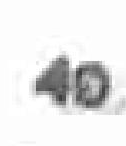40
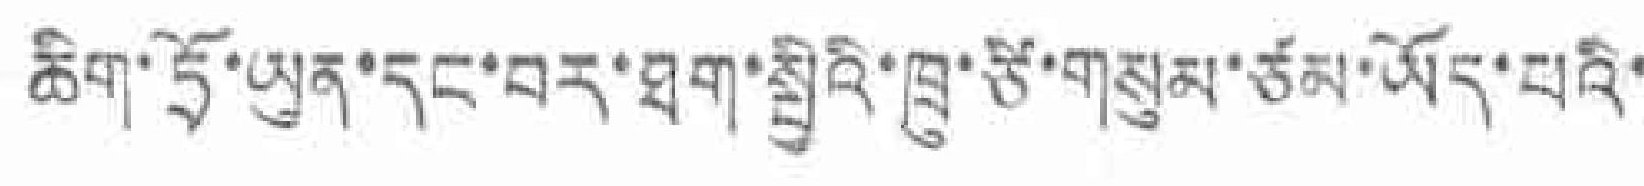ཆིག་ཧྲོ་ཡུན་དང་བར་ཐག་སྤྱིའི་ཁྲུ་ཙི་གསུམ་ཙམ་ཡོད་པའི་
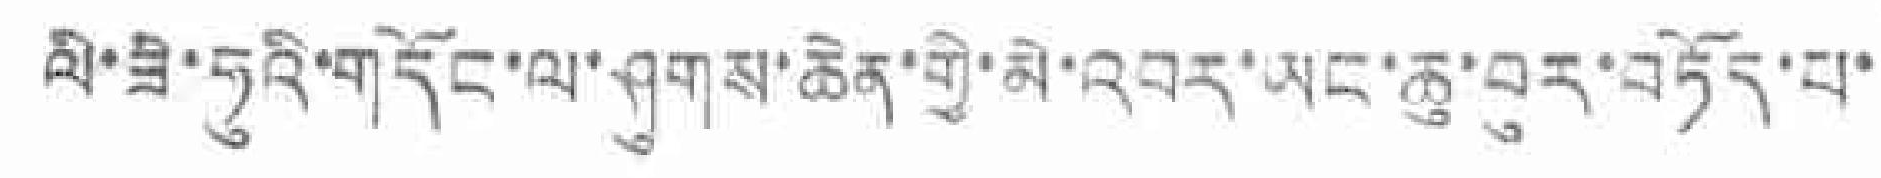ལི་ཟི་ཧུའི་གདོང་ལ་ཤུགས་ཆེན་གྱི་མེ་འབར་ཡང་ཆུ་བུར་བཏོད་པ་
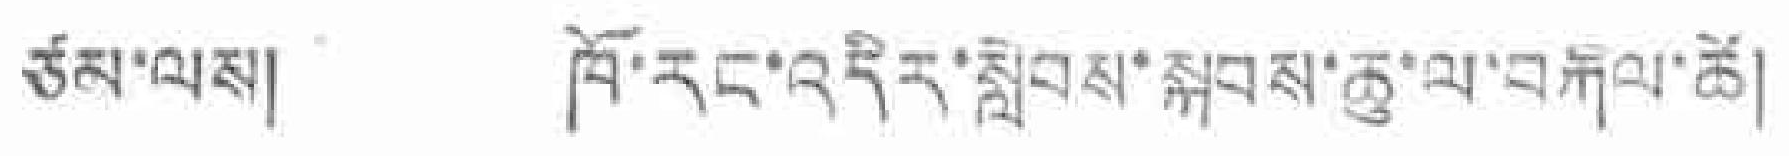ཙམ་ལས། ཁོ་རང་འདིར་སླེབས་སྐབས་ཆུ་ལ་བརྐལ་ཚེ།
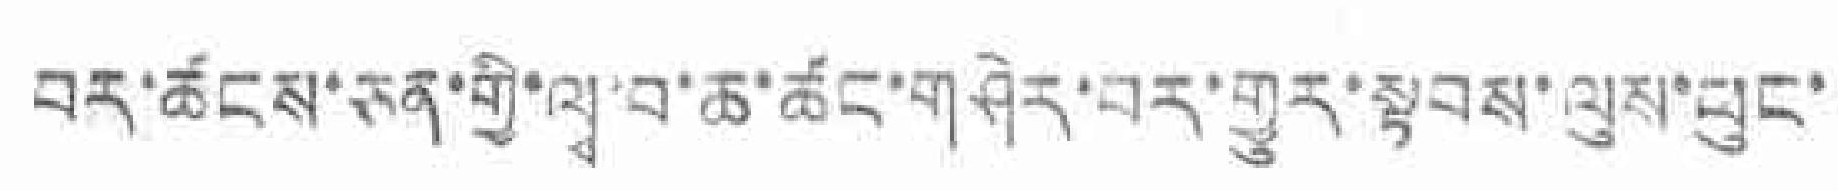བར་ཚངས་ཅན་གྱི་ལྭ་བ་ཆ་ཚང་གཤེར་བར་གྱུར་སྟབས་ལུམ་ཕུང་་
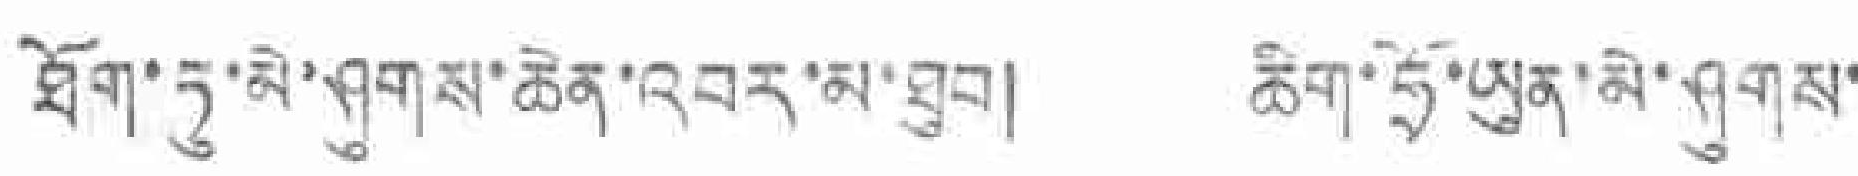ཐོག་ཏུ་མེ་ཤུགས་ཆེན་འབར་མ་ཐུབ། ཆིག་ཧྲོ་ཡུན་མེ་ཤུགས་
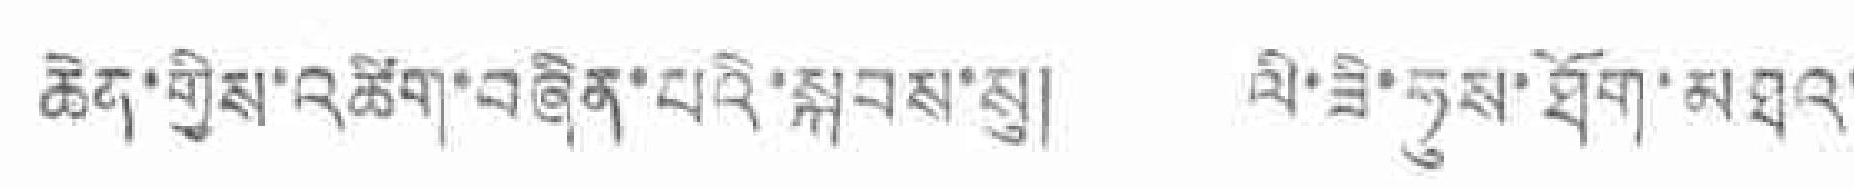ཆེན་གྱིས་འཚིག་བཞིན་པའི་སྐབས་སུ། ལི་ཟི་ཧུས་ཐོག་མཐའ་
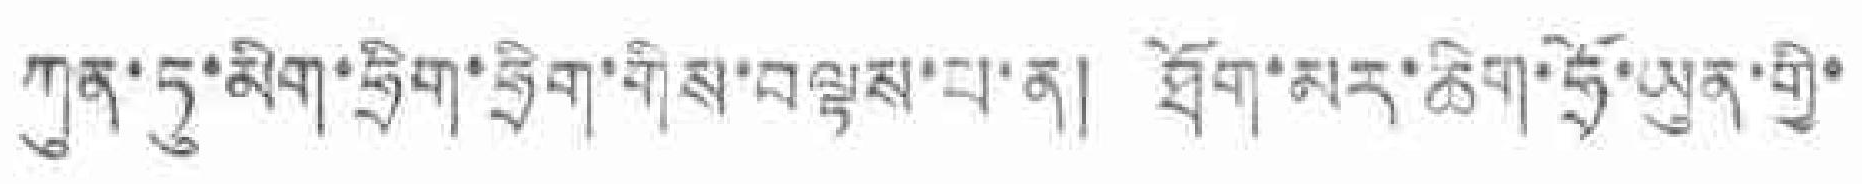ཀུན་ཏུ་མིག་ཧྲིག་ཧྲིག་གིས་བལྟས་པ་ན། ཐོག་མར་ཆིག་ཧྲོ་ཡུན་གྱི་
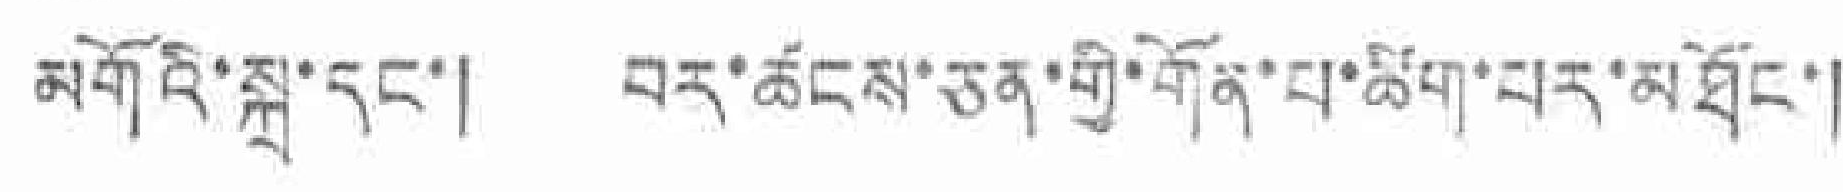མགོའི་སྐྲ་དང་། བར་ཚངས་ཅན་གྱི་གོན་པ་ཚིག་པར་མཐོང་།
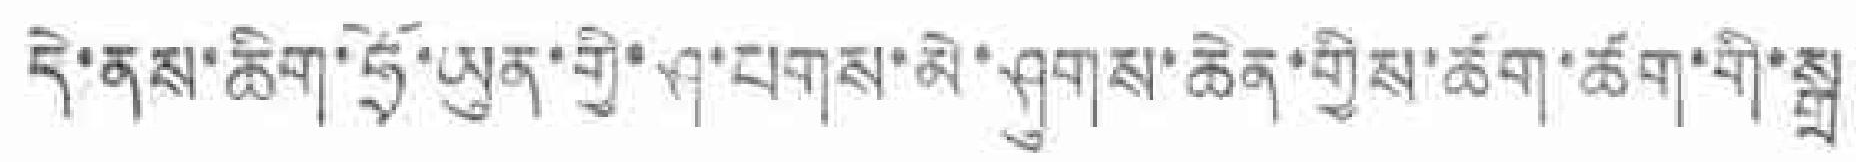དེ་ནས་ཆིག་ཧྲོ་ཡུན་གྱི་ཤ་པགས་མེ་ཤུགས་ཆེན་གྱིས་ཚག་ཆཚག་གི་སྒྲ
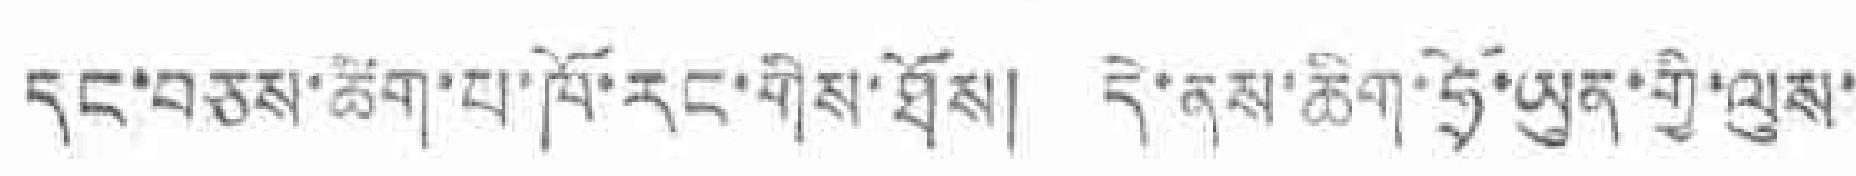དང་བཅས་ཚིག་པ་ཁོ་རང་གིས་ཐོས། དེ་ནས་ཆིག་ཧྲོ་ཡུན་གྱི་ལུས་
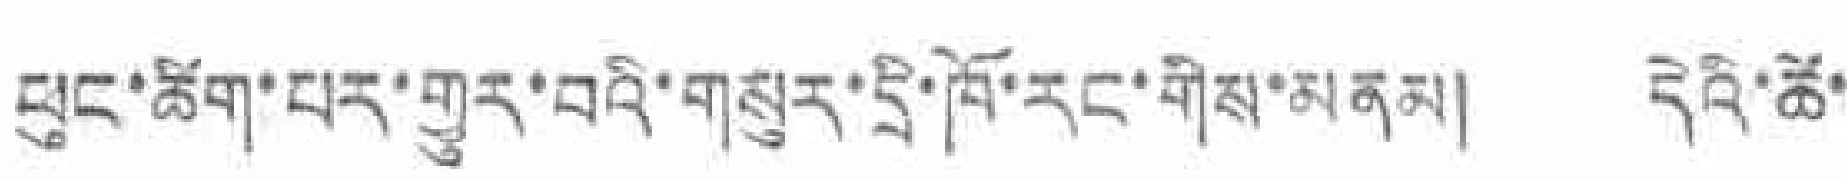ཕུང་ཚིག་པར་གྱུར་བའི་གསུར་དྲི་ཁོ་རང་གིས་མནམ། དེའི་ཚེ་
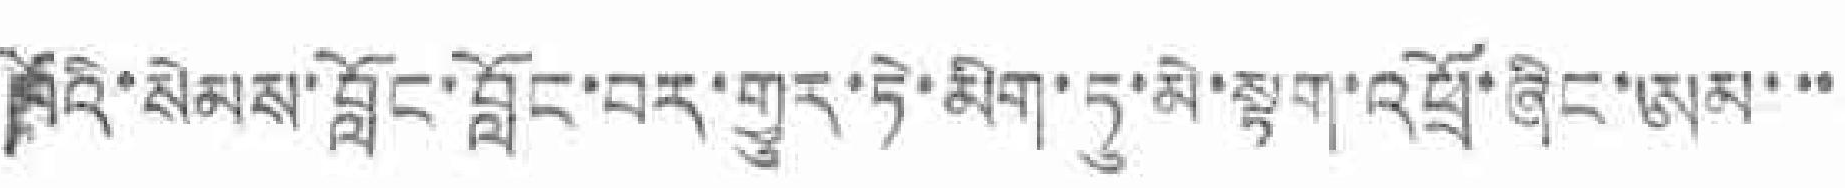ཁོའི་སེམས་བློང་བློང་བར་གྱུར་ཏེ་མིག་ཏུ་མེ་སྟག་འཕྲོ་ཞིང་ཨམ་་་
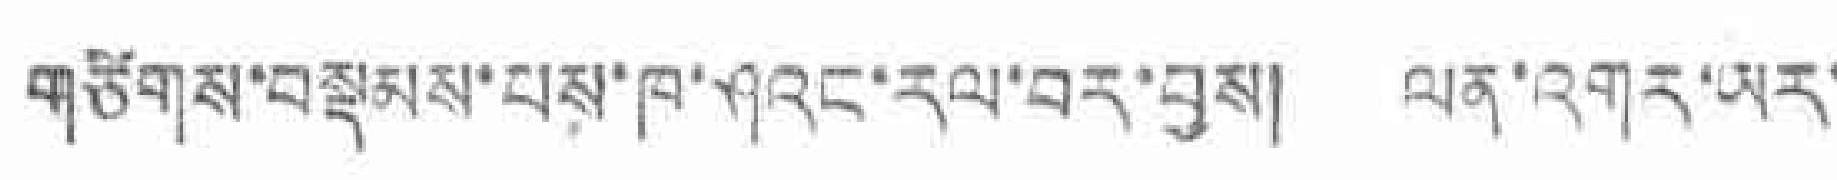གཙིགས་བསྡམས་པས་ཁ་ཤའང་རལ་བར་བྱས། ལན་འགར་ཡར་
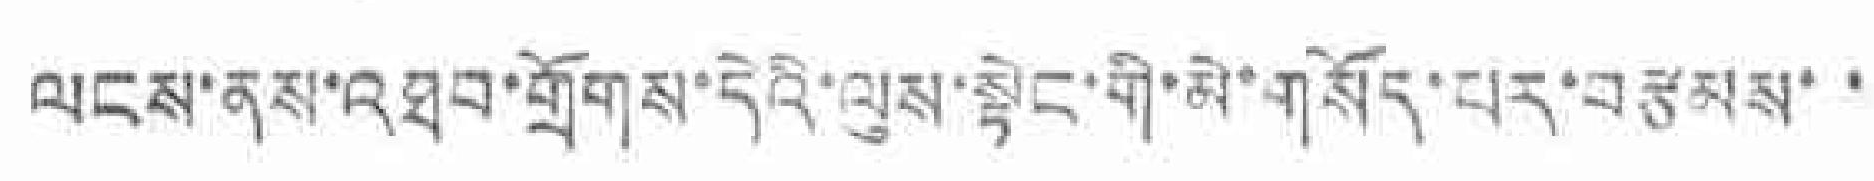ལངས་ནས་འཐབ་གྲོགས་དེའི་ལུས་སྟེང་གི་མེ་གསོད་པར་བརྩམས་་
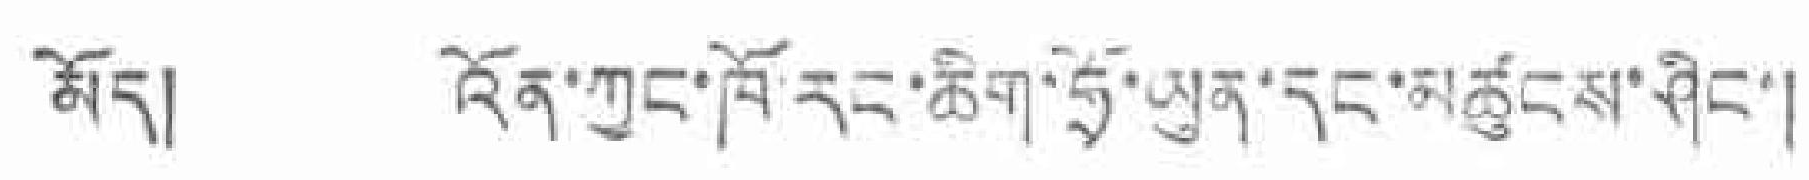མོད། འོན་ཀྱང་ཁོ་རང་ཆིག་ཧྲོ་ཡུན་དང་མཚུངས་ཤིང་།
